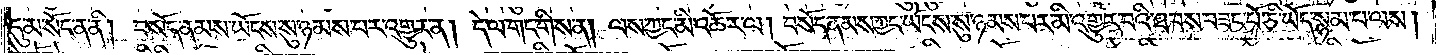དུ་མ་སོང་ན་ནི། བསོད་ནམས་ཡོངས་སུ་ཉམས་པར་འགྱུར་ན། དེ་ལ་གང་གིས་ན། ལས་ཀྱང་མི་འཆོར་ལ། བསོད་ནམས་ཀྱང་ཡོངས་སུ་ཉམས་པར་མི་འགྱུར་བའི་ཐབས་བཟང་པོ་ཅི་ཡོད་སྙམ་པ་ལས།
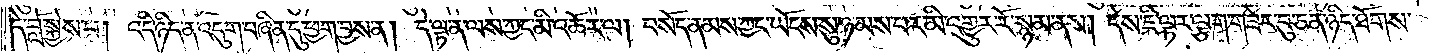དེ་བློ་སྐྱེས་པ། འདི་ཉིད་ན་འདུག་བཞིན་དུ་ཕྱག་བྱས་ནས། དེ་ལྟ་ན་ལས་ཀྱང་མི་འཆོར་ལ། བསོད་ནམས་ཀྱང་ཡོངས་སུ་ཉམས་པར་མི་འགྱུར་རོ་སྙམ་ནས། དེས་ཇི་ལྟར་ལྕག་གཟེར་བུ་ཅན་ཉིད་ཐོགས་
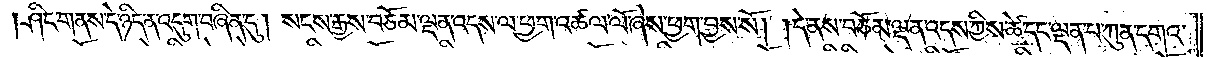ཤིང་གནས་དེ་ཉིད་ན་འདུག་བཞིན་དུ། སངས་རྒྱས་བཅོམ་ལྡན་འདས་ལ་ཕྱག་འཚལ་ལོ་ཞེས་ཕྱག་བྱས་སོ། །དེ་ནས་བཅོམ་ལྡན་འདས་ཀྱིས་ཚེ་དང་ལྡན་པ་ཀུན་དགའ་
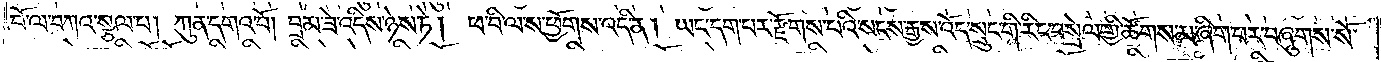བོ་ལ་བཀའ་སྩལ་པ། ཀུན་དགའ་བོ། བྲམ་ཟེ་འདིས་ཉེས་ཏེ། ཕ་བི་ལ་ས་ཕྱོགས་འདི་ན། ཡང་དག་པར་རྫོགས་པའི་སངས་རྒྱས་འོད་སྲུང་གི་རིང་བསྲེལ་གྱི་ཚོགས་མ་ཞིག་པར་བཞུགས་སོ།
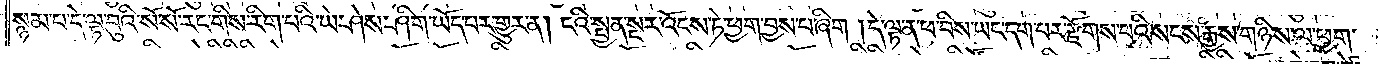སྙམ་པ་དེ་ལྟ་བུའི་སོ་སོ་རང་གི་རིག་པའི་ཡེ་ཤེས་ཤིག་ཡོད་པར་འགྱུར་ན། ངའི་སྤྱན་སྔར་འོངས་ཏེ་ཕྱག་བྱས་པ་ཞིག །དེ་ལྟ་ན་ཕ་བིས་ཡང་དག་པར་རྫོགས་པའི་སངས་རྒྱས་གཉིས་ལ་ཕྱག་
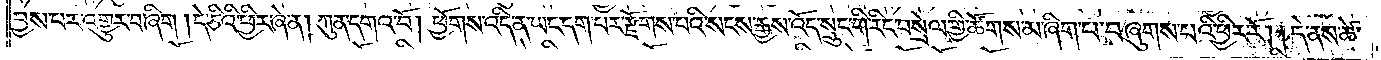བྱས་པར་འགྱུར་བ་ཞིག །དེ་ཅིའི་ཕྱིར་ཞེ་ན། ཀུན་དགའ་བོ། ཕྱོགས་འདི་ན་ཡང་དག་པར་རྫོགས་པའི་སངས་རྒྱས་འོད་སྲུང་གི་རིང་བསྲེལ་གྱི་ཚོགས་མ་ཞིག་པ་བཞུགས་པའི་ཕྱིར་རོ། །དེ་ནས་ཚེ་
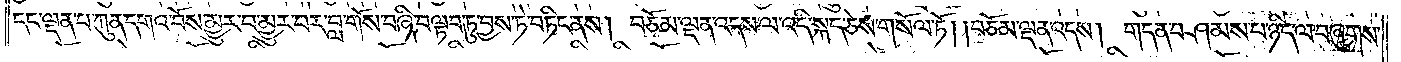དང་ལྡན་པ་ཀུན་དགའ་བོས་མྱུར་བ་མྱུར་བར་བླ་གོས་བཞི་བལྟབ་ཏུ་བྱས་ཏེ་བཏིང་ནས། བཅོམ་ལྡན་འདས་ལ་འདི་སྐད་ཅེས་གསོལ་ཏོ། །བཅོམ་ལྡན་འདས། གདན་བཤམས་པ་ཉིད་ལ་བཞུགས་
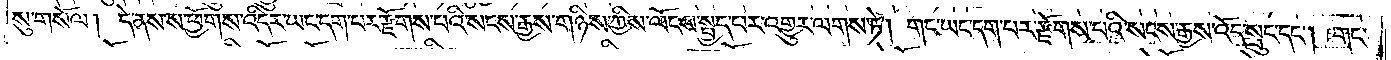སུ་གསོལ། དེ་ནས་ས་ཕྱོགས་འདིར་ཡང་དག་པར་རྫོགས་པའི་སངས་རྒྱས་གཉིས་ཀྱིས་ལོངས་སྤྱད་པར་འགྱུར་ལགས་ཏེ། གང་ཡང་དག་པར་རྫོགས་པའི་སངས་རྒྱས་འོད་སྲུང་དང༌། གང་
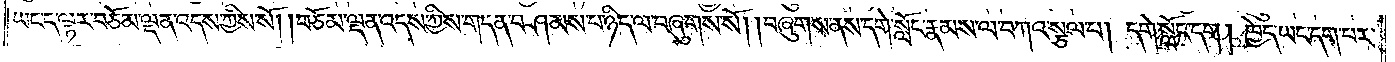ཡང་ད་ལྟར་བཅོམ་ལྡན་འདས་ཀྱིས་སོ། །བཅོམ་ལྡན་འདས་ཀྱིས་གདན་བཤམས་པ་ཉིད་ལ་བཞུགས་སོ། །བཞུགས་ནས་དགེ་སློང་རྣམས་ལ་བཀའ་སྩལ་པ། དགེ་སློང་དག །ཁྱེད་ཡང་དག་པར་
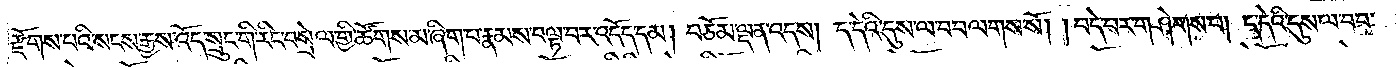རྫོགས་པའི་སངས་རྒྱས་འོད་སྲུང་གི་རིང་བསྲེལ་གྱི་ཚོགས་མ་ཞིག་པ་རྣམས་བལྟ་བར་འདོད་དམ། བཅོམ་ལྡན་འདས། ད་དེའི་དུས་ལ་བབ་ལགས་སོ། །བདེ་བར་གཤེགས་པ། ད་དེའི་དུས་ལ་བབ་
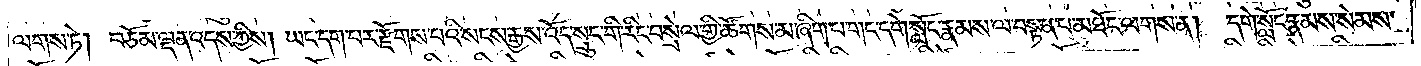ལགས་ཏེ། བཅོམ་ལྡན་འདས་ཀྱིས། ཡང་དག་པར་རྫོགས་པའི་སངས་རྒྱས་འོད་སྲུང་གི་རིང་བསྲེལ་གྱི་ཚོགས་མ་ཞིག་པ་གང་དགེ་སློང་རྣམས་ལ་བསྟན་པ་མཐོང་ལགས་ན། དགེ་སློང་རྣམས་སེམས་
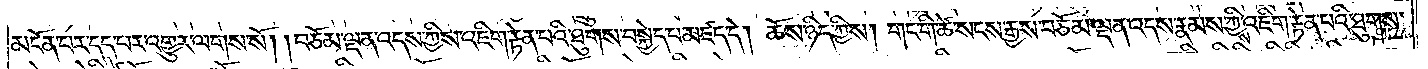མངོན་པར་དད་པར་འགྱུར་ལགས་སོ། །བཅོམ་ལྡན་འདས་ཀྱིས་འཇིག་རྟེན་པའི་ཐུགས་བསྐྱེད་པ་མཛད་དེ། ཆོས་ཉིད་ཀྱིས། གང་གི་ཚེ་སངས་རྒྱས་བཅོམ་ལྡན་འདས་རྣམས་ཀྱིས་འཇིག་རྟེན་པའི་ཐུགས་
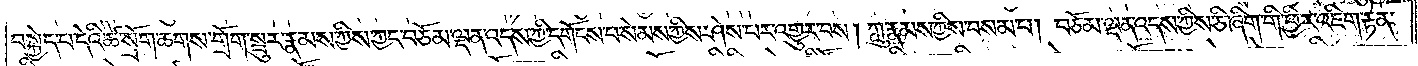བསྐྱེད་པ་དེའི་ཚེ་སྲོག་ཆགས་གྲོག་སྦུར་རྣམས་ཀྱིས་ཀྱང་བཅོམ་ལྡན་འདས་ཀྱི་དགོངས་པ་སེམས་ཀྱིས་ཤེས་པར་འགྱུར་བས། ཀླུ་རྣམས་ཀྱིས་བསམ་པ། བཅོམ་ལྡན་འདས་ཀྱིས་ཅི་ཞིག་གི་ཕྱིར་འཇིག་རྟེན་
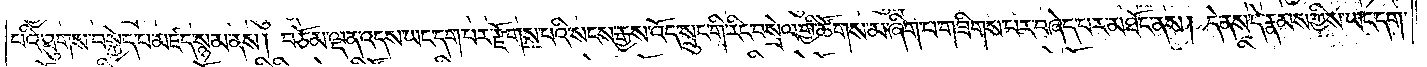པའི་ཐུགས་བསྐྱེད་པ་མཛད་སྙམ་ནས། བཅོམ་ལྡན་འདས་ཡང་དག་པར་རྫོགས་པའི་སངས་རྒྱས་འོད་སྲུང་གི་རིང་བསྲེལ་གྱི་ཚོགས་མ་ཞིག་པ་གཟིགས་པར་བཞེད་པར་མཐོང་ནས། དེ་ནས་དེ་རྣམས་ཀྱིས་ཡང་དག་
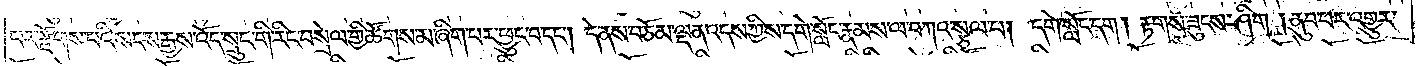པར་རྫོགས་པའི་སངས་རྒྱས་འོད་སྲུང་གི་རང་བསྲེལ་གྱི་ཚོགས་མ་ཞིག་པར་ཕྱུང་བ་དང༌། དེ་ནས་བཅོམ་ལྡན་འདས་ཀྱིས་དགེ་སློང་རྣམས་ལ་བཀའ་སྩལ་པ། དགེ་སློང་དག །རྟགས་ཟུངས་ཤིག །ནུབ་པར་འགྱུར་
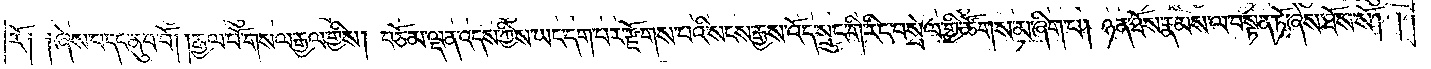རོ། །ཞེས་པ་དང་ནུབ་བོ། །རྒྱལ་པོ་གསལ་རྒྱལ་གྱིས། བཅོམ་ལྡན་འདས་ཀྱིས་ཡང་དག་པར་རྫོགས་པའི་སངས་རྒྱས་འོད་སྲུང་གི་རིང་བསྲེལ་གྱི་ཚོགས་མ་ཞིག་པ། ཉན་ཐོས་རྣམས་ལ་བསྟན་ཏོ་ཞེས་ཐོས་སོ། །
